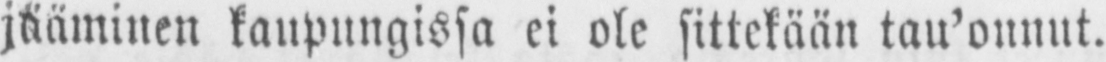jääminen kaupungissa ei ole sittekään tau'onnut.
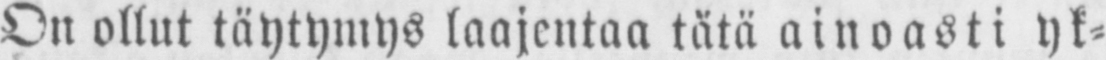On ollut täytymys laajentaa tätä ainoasti yk-
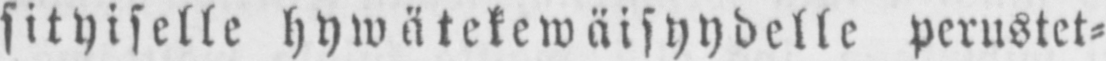sityiselle hywätekewäisyydelle perustet-
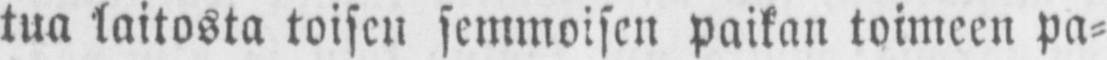tua laitosta toisen semmoisen paikan toimeen pa-
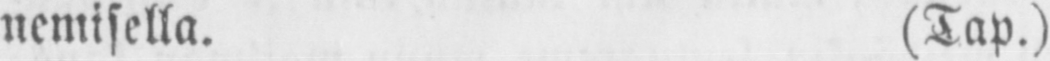nemisella. (Tap.)
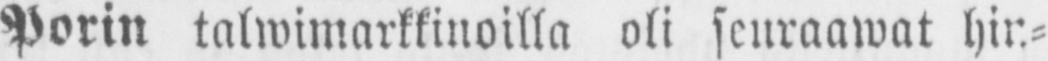Porin talwimarkkinoilla oli seuraawat hin-
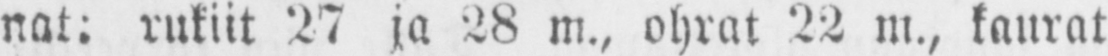nat: rukiit 27 ja 28 m., ohrat 22 m., kaurat
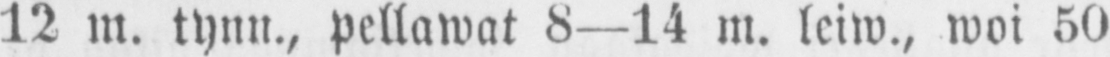12 m. tynn., pellawat 8—14 m. leiw., woi 50
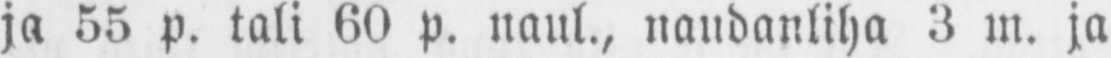ja 55 p. tali 60 p. naul., naudanliha 3 m. ja
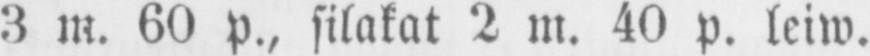3 m. 60 p., silakat 2 m. 40 p. leiw.
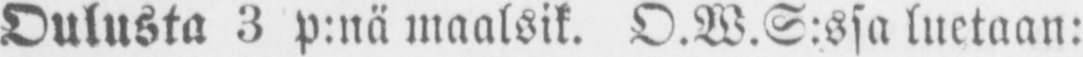Oulusta 3 p:nä maalsik. O.W.S:ssa luetaan:
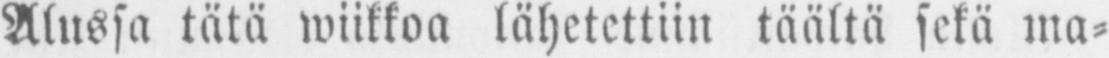Alussa tätä wiikkoa lähetettiin täältä sekä ma-
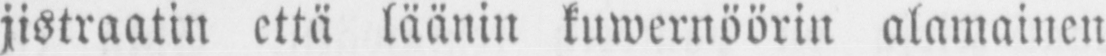jistraatin että läänin kuwernöörin alamainen
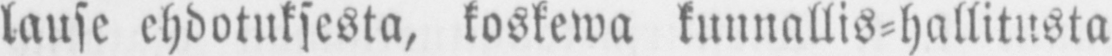lause ehdotuksesta, koskewa kunnallis-hallitusta
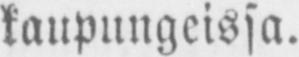kaupungeissa.
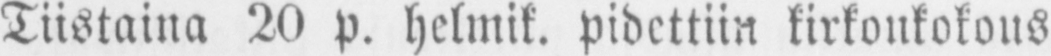Tiistaina 20 p. Helmik, pidettiin kirkonkokous
